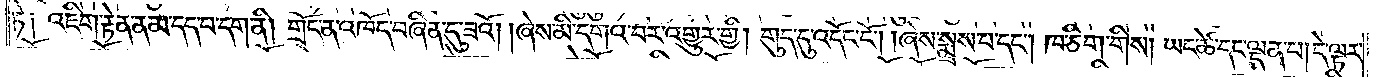ཏེ༑ འཇིག་རྟེན་ན་མ་དད་པ་དག་ནི། གྲོང་ན་འཁོད་བཞིན་དུ་ཟའོ། །ཞེས་མི་དགའ་བར་འགྱུར་གྱི། གུད་དུ་འདོང་ངོ༌། །ཞེས་སྨྲས་པ་དང༌། ཁ་ཅིག་གིས། ཡང་ཚེ་དང་ལྡན་པ། དེ་ལྟར་
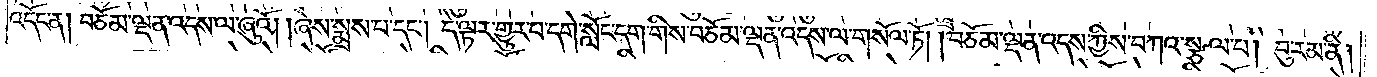འདོང་ན། བཅོམ་ལྡན་འདས་ལ་ཞུའོ། །ཞེས་སྨྲས་པ་དང༌། དེ་ལྟར་གྱུར་པ་དགེ་སློང་དག་གིས་བཅོམ་ལྡན་འདས་ལ་གསོལ་ཏོ། །བཅོམ་ལྡན་འདས་ཀྱིས་བཀའ་སྩལ་པ། བུ་རམ་ནི།
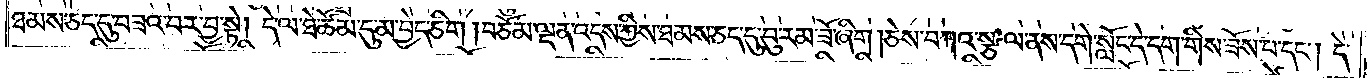ཐམས་ཅད་དུ་བཟའ་བར་བྱ་སྟེ། དེ་ལ་ཐེ་ཚོམ་དུ་མ་བྱེད་ཅིག །བཅོམ་ལྡན་འདས་ཀྱིས་ཐམས་ཅད་དུ་བུ་རམ་ཟོ་ཞིག །ཅེས་བཀའ་སྩལ་ནས་དགེ་སློང་དེ་དག་གིས་ཟོས་པ་དང༌། དེ་
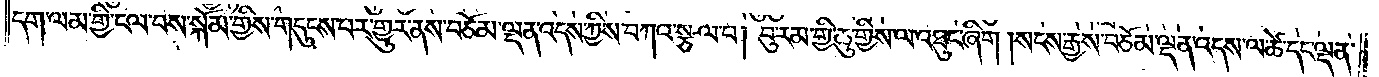དག་ལམ་གྱི་ངལ་བས་སྐོམ་གྱིས་གདུངས་པར་གྱུར་ནས་བཅོམ་ལྡན་འདས་ཀྱིས་བཀའ་སྩལ་པ། བུ་རམ་གྱི་ཆུ་གྱིས་ལ་འཐུང་ཞིག །སངས་རྒྱས་བཅོམ་ལྡན་འདས་ལ་ཚེ་དང་ལྡན་
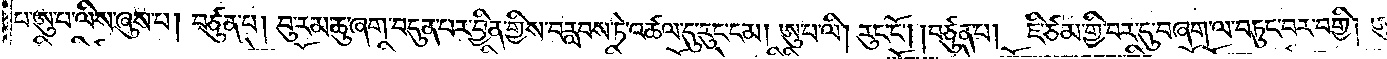པ་ཨུ་པ་ལིས་ཞུས་པ། བཙུན་པ། བུ་རམ་ཆུ་ཞག་བདུན་པར་བྱིན་གྱིས་བརླབས་ཏེ་འཚལ་དུ་རུང་ངམ། ཨུ་པ་ལི། རུང་ངོ༌། །བཙུན་པ། ཇི་ཙམ་གྱི་བར་དུ་བཞག་ལ་བཏུང་བར་བགྱི། ཨུ་
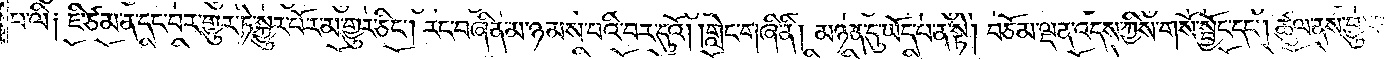པ་ལི༑ ཇི་ཙམ་ན་དང་བར་གྱུར་ཏེ་སྐྱུར་པོར་མ་གྱུར་ཅིང༌། རང་བཞིན་མ་ཉམས་པའི་བར་དུའོ། །གླེང་གཞི་ནི། མཉན་དུ་ཡོད་པ་ན་སྟེ། བཅོམ་ལྡན་འདས་ཀྱིས་གསོ་སྦྱོང་དང༌། ཚུལ་ནས་བྱུང་བ་
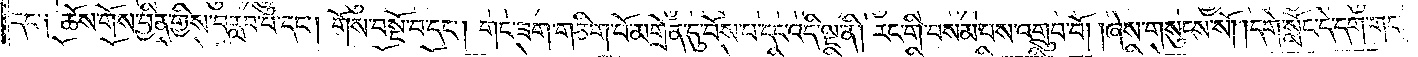དང་༑ ཆོས་གོས་བྱིན་གྱིས་བརླབ་པ་དང༌། གོས་བསྔོ་བ་དང༌། གང་ཟག་གཅིག་པོ་མགྲོན་དུ་བོས་པ་དང་འདི་ལྔ་ནི། རང་གི་བསམ་པས་འགྲུབ་བོ། །ཞེས་གསུངས་སོ། །དགེ་སློང་དེ་དག་གང་
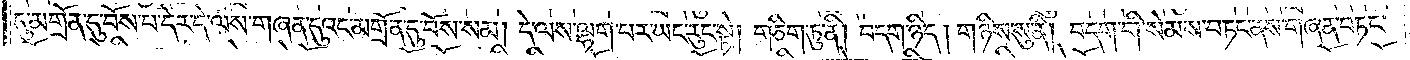དུ་མགྲོན་དུ་བོས་པ་དེར་དེ་ལས་གཞན་དུའང་མགྲོན་དུ་བོས་སམ། དེ་ལས་ལྷག་པར་ཡང་རུང་སྟེ། གཅིག་ཏུ་ནི། བདག་ཉིད། གཉིས་སུ་ནི། བདག་གི་སེམས་བཏང་ནས་གཞན་བཏང་
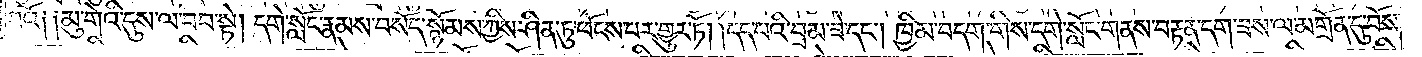བའོ༑ ༑མུ་གེའི་དུས་ལ་བབ་སྟེ། དགེ་སློང་རྣམས་བསོད་སྙོམས་ཀྱིས་ཤིན་ཏུ་ཕོངས་པར་གྱུར་ཏོ། །དད་པའི་བྲམ་ཟེ་དང༌། ཁྱིམ་བདག་གིས་དགེ་སློང་གནས་བརྟན་དག་ཟས་ལ་མགྲོན་དུ་བོས་
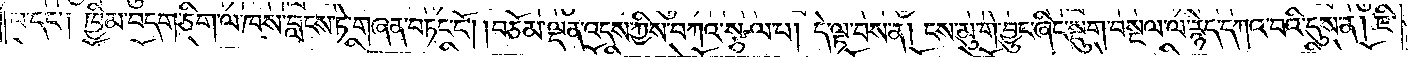པ་དང༌། ཁྱིམ་བདག་ཅིག་ལ་ཁས་བླངས་ཏེ་གཞན་བཏང་ངོ༌། །བཅོམ་ལྡན་འདས་ཀྱིས་བཀའ་སྩལ་པ། དེ་ལྟ་བས་ན། ངས་མུ་གེ་བྱུང་ཞིང་སྡུག་བསྔལ་ལ་རྙེད་དཀའ་བའི་དུས་ན། ཇི་
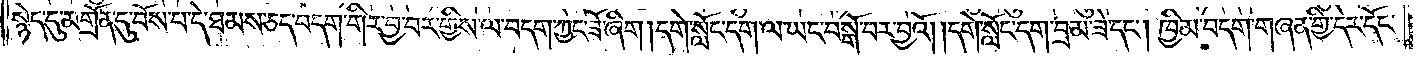སྙེད་དུ་མགྲོན་དུ་བོས་པ་དེ་ཐམས་ཅད་བདག་གིར་བྱ་བར་གྱིས་ལ་བདག་ཀྱང་ཟོ་ཞིག །དགེ་སློང་དག་ལ་ཡང་བསྒོ་བར་བྱའོ། །དགེ་སློང་དག་བྲམ་ཟེ་དང༌། ཁྱིམ་བདག་གཞན་གྱི་དེར་དོང་
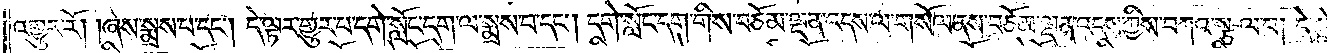འགྱུར་རོ། །ཞེས་སྨྲས་པ་དང༌། དེ་ལྟར་གྱུར་པ་དགེ་སློང་དག་ལ་སྨྲས་པ་དང༌། དགེ་སློང་དག་གིས་བཅོམ་ལྡན་འདས་ལ་གསོལ་ནས། བཅོམ་ལྡན་འདས་ཀྱིས་བཀའ་སྩལ་པ། དེ་སྟེ་སྨན་པས་
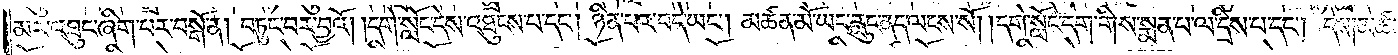མར་འཐུང་ཞིག་པར་བསྒོ་ན། བཏུང་བར་བྱའོ། །དགེ་སློང་དེས་འཐུངས་པ་དང༌། ཉིན་པར་བདེ་ཡང༌། །མཚན་མོ་ཡང་རླུང་ནད་ལངས་སོ། །དགེ་སློང་དག་གིས་སྨན་པ་ལ་དྲིས་པ་དང༌། དེས།མཚན་
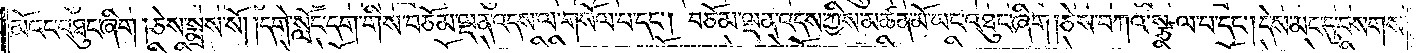མོའང་འཐུང་ཞིག །ཅེས་སྨྲས་སོ། །དགེ་སློང་དག་གིས་བཅོམ་ལྡན་འདས་ལ་གསོལ་པ་དང༌། བཅོམ་ལྡན་འདས་ཀྱིས་མཚན་མོ་ཡང་འཐུང་ཞིག །ཅེས་བཀའ་སྩལ་པ་དང༌། དེས་མང་དུ་བསགས་
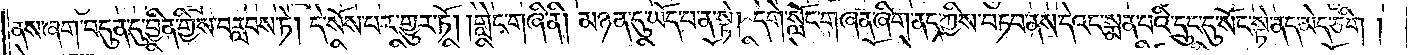ནས་ཞག་བདུན་དུ་བྱིན་གྱིས་བརླབས་ཏེ། དེ་སོས་པར་གྱུར་ཏོ། །གླེང་གཞི་ནི། མཉན་དུ་ཡོད་པ་ན་སྟེ། དགེ་སློང་གཞན་ཞིག་ནད་ཀྱིས་བཏབ་ནས་དེའང་སྨན་པའི་དྲུང་དུ་སོང་སྟེ་ནད་མེད་ཅིག །
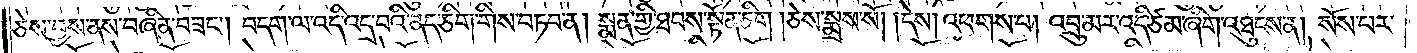ཅེས་བྱས་ནས་བཞིན་བཟང༌། བདག་ལ་འདི་འདྲ་བའི་ནད་ཅིག་གིས་བཏབ་ན། སྨན་གྱི་ཐབས་སྟོན་ཅིག །ཅེས་སྨྲས་སོ། །དེས། འཕགས། འབྲུ་མར་འདི་ཙམ་ཞིག་འཐུངས་ན། སོས་པར་
